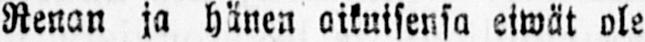Renan ja hänen aikuisensa eiwät ole
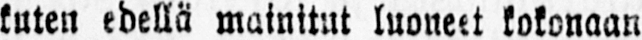kuten edellä mainitut luoneet kokonaan
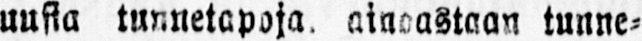uusia tunnetapoja ainoastaan tunne-
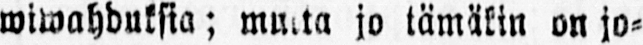wiwahduksia; mutta jo tämäkin on jo-
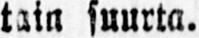tain suurta.
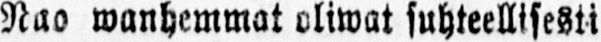Nuo wanhemmat oliwat suhteellisesti
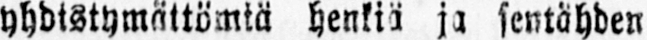yhdistymättömiä henkiä ja sentähden
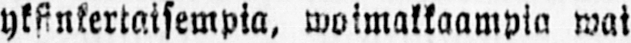yksinkertaisempia, woimakkaampia wat
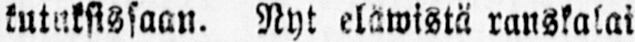kutuksissaan. Nyt eläwistä ranskalai
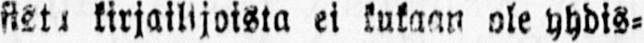sista kirjailijoista ei kukaan ole yhdis-
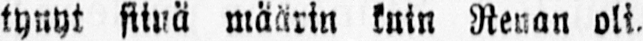tynyt siinä määrin kuin Renan oli.
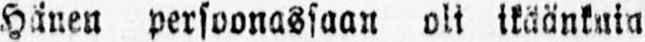Hänen persoonassaan oli ikäänkuin
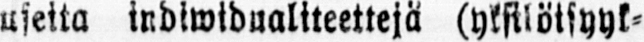useita indiwidualiteetteja (yksilötsyyk-
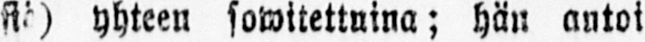siä) yhteen sowitettuina; hän antoi
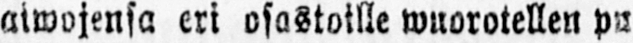aiwojensa eri osastoille wuorotellen pu
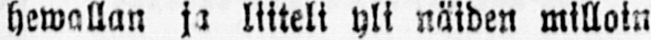hewallan ja liiteli yli näiden milloin
